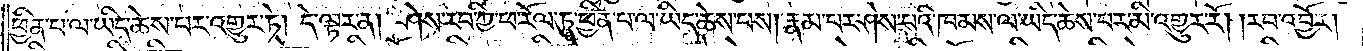ཕྱིན་པ་ལ་ཡིད་ཆེས་པར་འགྱུར་ཏེ། དེ་ལྟར་ན། ཤེས་རབ་ཀྱི་ཕ་རོལ་ཏུ་ཕྱིན་པ་ལ་ཡིད་ཆེས་པས། རྣམ་པར་ཤེས་པའི་ཁམས་ལ་ཡིད་ཆེས་པར་མི་འགྱུར་རོ། །རབ་འབྱོར།
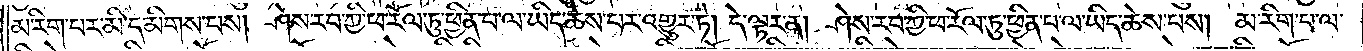མ་རིག་པར་མི་དམིགས་པས། ཤེས་རབ་ཀྱི་ཕ་རོལ་ཏུ་ཕྱིན་པ་ལ་ཡིད་ཆེས་པར་འགྱུར་ཏེ། དེ་ལྟར་ན། ཤེས་རབ་ཀྱི་ཕ་རོལ་ཏུ་ཕྱིན་པ་ལ་ཡིད་ཆེས་པས། མ་རིག་པ་ལ་
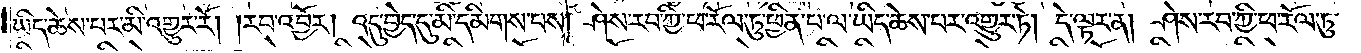ཡིད་ཆེས་པར་མི་འགྱུར་རོ། །རབ་འབྱོར། འདུ་བྱེད་དུ་མི་དམིགས་པས། ཤེས་རབ་ཀྱི་ཕ་རོལ་ཏུ་ཕྱིན་པ་ལ་ཡིད་ཆེས་པར་འགྱུར་ཏེ། དེ་ལྟར་ན། ཤེས་རབ་ཀྱི་ཕ་རོལ་ཏུ་
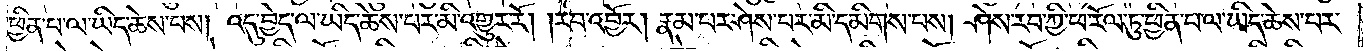ཕྱིན་པ་ལ་ཡིད་ཆེས་པས། འདུ་བྱེད་ལ་ཡིད་ཆེས་པར་མི་འགྱུར་རོ། །རབ་འབྱོར། རྣམ་པར་ཤེས་པར་མི་དམིགས་པས། ཤེས་རབ་ཀྱི་ཕ་རོལ་ཏུ་ཕྱིན་པ་ལ་ཡིད་ཆེས་པར་
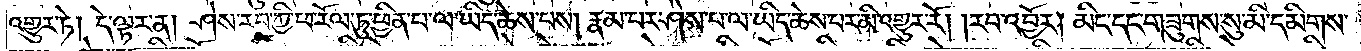འགྱུར་ཏེ། དེ་ལྟར་ན། ཤེས་རབ་ཀྱི་ཕ་རོལ་ཏུ་ཕྱིན་པ་ལ་ཡིད་ཆེས་པས། རྣམ་པར་ཤེས་པ་ལ་ཡིད་ཆེས་པར་མི་འགྱུར་རོ། །རབ་འབྱོར། མིང་དང་གཟུགས་སུ་མི་དམིགས་
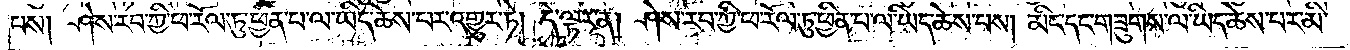པས། ཤེས་རབ་ཀྱི་ཕ་རོལ་ཏུ་ཕྱིན་པ་ལ་ཡིད་ཆེས་པར་འགྱུར་ཏེ། དེ་ལྟར་ན། ཤེས་རབ་ཀྱི་ཕ་རོལ་ཏུ་ཕྱིན་པ་ལ་ཡིད་ཆེས་པས། མིང་དང་གཟུགས་ལ་ཡིད་ཆེས་པར་མི་
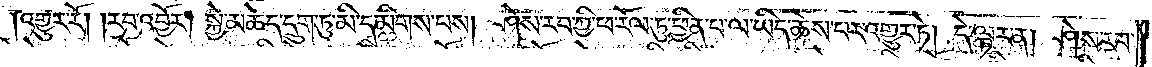འགྱུར་རོ། །རབ་འབྱོར། སྐྱེ་མཆེད་དྲུག་ཏུ་མི་དམིགས་པས། ཤེས་རབ་ཀྱི་ཕ་རོལ་ཏུ་ཕྱིན་པ་ལ་ཡིད་ཆེས་པར་འགྱུར་ཏེ། དེ་ལྟར་ན། ཤེས་རབ་
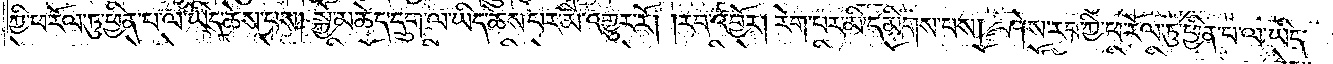ཀྱི་ཕ་རོལ་ཏུ་ཕྱིན་པ་ལ་ཡིད་ཆེས་པས། སྐྱེ་མཆེད་དྲུག་ལ་ཡིད་ཆེས་པར་མི་འགྱུར་རོ། །རབ་འབྱོར། རེག་པར་མི་དམིགས་པས། ཤེས་རབ་ཀྱི་ཕ་རོལ་ཏུ་ཕྱིན་པ་ལ་ཡིད་
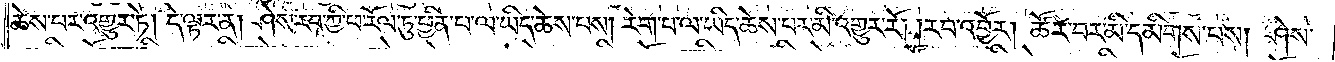ཆེས་པར་འགྱུར་ཏེ། དེ་ལྟར་ན། ཤེས་རབ་ཀྱི་ཕ་རོལ་ཏུ་ཕྱིན་པ་ལ་ཡིད་ཆེས་པས། རེག་པ་ལ་ཡིད་ཆེས་པར་མི་འགྱུར་རོ། །རབ་འབྱོར། ཚོར་བར་མི་དམིགས་པས། ཤེས་
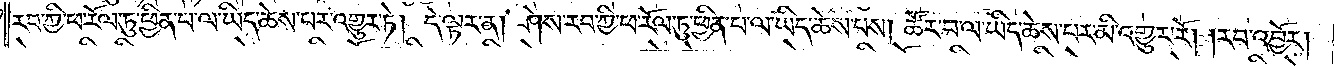རབ་ཀྱི་ཕ་རོལ་ཏུ་ཕྱིན་པ་ལ་ཡིད་ཆེས་པར་འགྱུར་ཏེ། དེ་ལྟར་ན། ཤེས་རབ་ཀྱི་ཕ་རོལ་ཏུ་ཕྱིན་པ་ལ་ཡིད་ཆེས་པས། ཚོར་བ་ལ་ཡིད་ཆེས་པར་མི་འགྱུར་རོ། །རབ་འབྱོར།
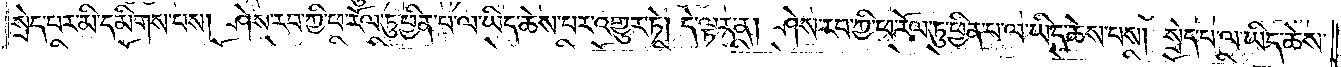སྲེད་པར་མི་དམིགས་པས། ཤེས་རབ་ཀྱི་ཕ་རོལ་ཏུ་ཕྱིན་པ་ལ་ཡིད་ཆེས་པར་འགྱུར་ཏེ། དེ་ལྟར་ན། ཤེས་རབ་ཀྱི་ཕ་རོལ་ཏུ་ཕྱིན་པ་ལ་ཡིད་ཆེས་པས། སྲེད་པ་ལ་ཡིད་ཆེས་
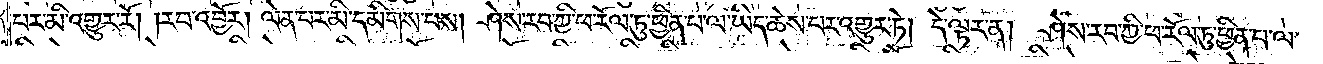པར་མི་འགྱུར་རོ། །རབ་འབྱོར། ལེན་པར་མི་དམིགས་པས། ཤེས་རབ་ཀྱི་ཕ་རོལ་ཏུ་ཕྱིན་པ་ལ་ཡིད་ཆེས་པར་འགྱུར་ཏེ། དེ་ལྟར་ན། ཤེས་རབ་ཀྱི་ཕ་རོལ་ཏུ་ཕྱིན་པ་ལ་
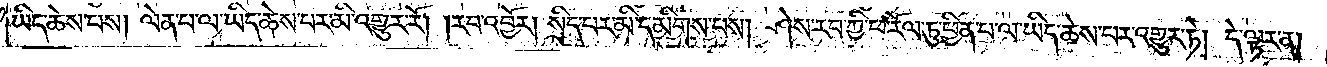ཡིད་ཆེས་པས། ལེན་པ་ལ་ཡིད་ཆེས་པར་མི་འགྱུར་རོ། །རབ་འབྱོར། སྲིད་པར་མི་དམིགས་པས། ཤེས་རབ་ཀྱི་ཕ་རོལ་ཏུ་ཕྱིན་པ་ལ་ཡིད་ཆེས་པར་འགྱུར་ཏེ། དེ་ལྟར་ན།
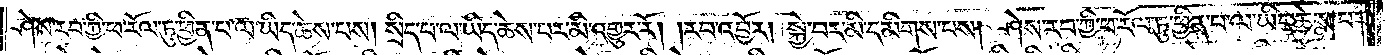ཤེས་རབ་ཀྱི་ཕ་རོལ་ཏུ་ཕྱིན་པ་ལ་ཡིད་ཆེས་པས། སྲིད་པ་ལ་ཡིད་ཆེས་པར་མི་འགྱུར་རོ། །རབ་འབྱོར། སྐྱེ་བར་མི་དམིགས་པས། ཤེས་རབ་ཀྱི་ཕ་རོལ་ཏུ་ཕྱིན་པ་ལ་ཡིད་ཆེས་པར་
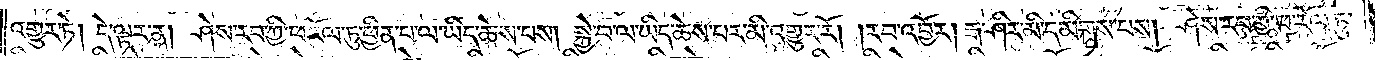འགྱུར་ཏེ། དེ་ལྟར་ན། ཤེས་རབ་ཀྱི་ཕ་རོལ་ཏུ་ཕྱིན་པ་ལ་ཡིད་ཆེས་པས། སྐྱེ་བ་ལ་ཡིད་ཆེས་པར་མི་འགྱུར་རོ། །རབ་འབྱོར། རྒ་ཤིར་མི་དམིགས་པས། ཤེས་རབ་ཀྱི་ཕ་རོལ་ཏུ་
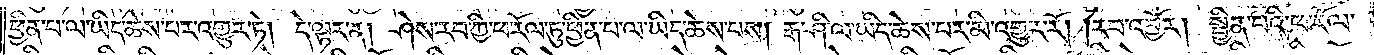ཕྱིན་པ་ལ་ཡིད་ཆེས་པར་འགྱུར་ཏེ། དེ་ལྟར་ན། ཤེས་རབ་ཀྱི་ཕ་རོལ་ཏུ་ཕྱིན་པ་ལ་ཡིད་ཆེས་པས། རྒ་ཤི་ལ་ཡིད་ཆེས་པར་མི་འགྱུར་རོ། །རབ་འབྱོར། སྦྱིན་པའི་ཕ་རོལ་
